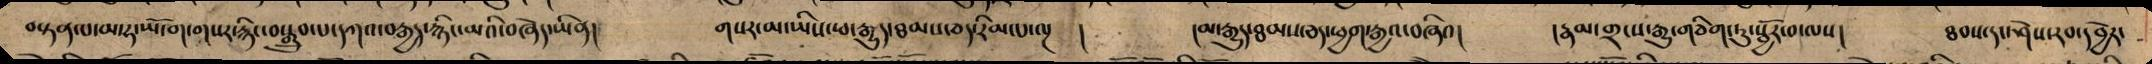བསྟན་པ་མ་ཧ་ཡོ་ག་གསར་རྙིང་བསྒྲུབ་པ་དཀའ་བརྒྱད་རྙིང་མའི་བཞེད་ཡིན། གསར་མ་ཡིས་ཕ་རྒྱུད་ཐམས་ཅད་རིམ་པ་ལྔ ། །མ་རྒྱུད་ཐམས་ཅད་ཕྱག་རྒྱའ་བཞིའ། །རྣམ་གྲངས་རྒྱུ་གཅིག་ཏུ་སྦྱོར་བ་ལས། ཐབས་དང་ཤེས་རབ་དབྱེར་
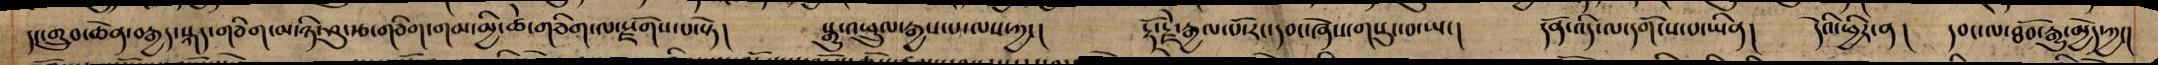དང་གྲུབ་ཆེན་བརྒྱད་སྐད་གཅིག་མ་ཉི་ཤུ་རྩ་གཅིག་གམ་མྱི་ཚེ་གཅིག་ལ་སྫོགས་པ་སྟེ། སྒྱུ་འཕྲུལ་རྒྱས་པ་ལས་ཀྱང། རྡོ་རྗེ་རྒྱལ་པོ་རང་དབང་ཞེས་གསུང་བ་ཡང། དོན་འདི་ལ་དགོངས་པ་ཡིན། དེའི་ཕྱིར་ན། དབང་ལ་ཐོབ་རྒྱུ་མྱེད་ཀྱང།
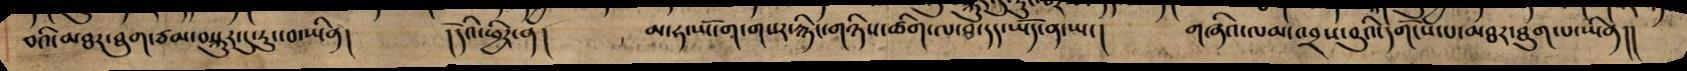བའི་མཐར་ཐུག་ཙམ་བསྐུར་དུ་རུང་བ་ཡིན། །དེའི་ཕྱིར་ན། མ་ཧ་ཡོ་ག་གསར་རྙིང་གཉིས་ཚིག་ལ་ཐ་དད་ཡོད་བ་ཡང། གཞིའ་ལམ་འབྲས་བུའི་དགོངས་པ་མཐར་ཐུག་པ་ཡིན།།
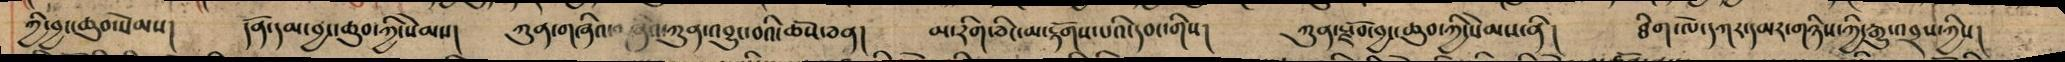ཀྱི་བྱང་ཆུབ་སེམས། དོན་དམ་བྱང་ཆུབ་ཀྱི་སེམས། ཀུན་གཞིའ་ ཀུན་འབྱུང་བའི་ཆོས་ཅན། མ་རིག་ཅིང་མ་རྟོགས་པའི་དབང་གིས། ཀུན་སྫོབ་བྱང་ཆུབ་ཀྱི་སེམས་ནི། ཐིག་ལེ་དཀར་དམར་གཉིས་ཀྱི་རྒྱུ་འབྲས་ཀྱིས།
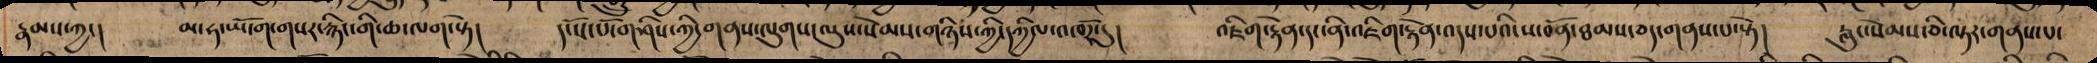རྣམས་ཀྱང། མ་ཧ་ཡོ་ག་གསར་རྙིང་གི་ཆ་ལག་སྟེ། དངོས་པོ་གཤིས་ཀྱི་གནས་ལུགས་ལུས་སེམས་གཉིས་ཀྱི་དཀྱིལ་འཁོར་དུ། འཇིག་རྟེན་དང་ནི་འཇིག་རྟེན་འདས་པའི་ས་བོན་ཐམས་ཅད་གནས་པ་སྟེ། རླུང་སེམས་ཅི་ལྟར་གནས་པ་
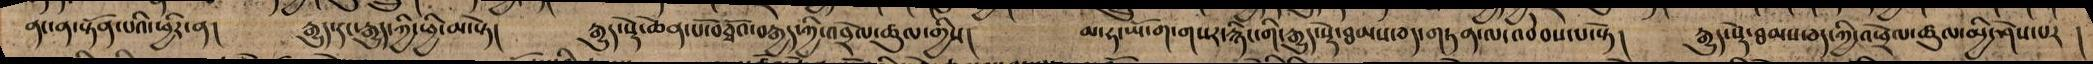ནང་ན་སྟོན་པའི་ཕྱིར་ན། རྒྱུད་དང་རྒྱུད་ཀྱི་ཕྱི་མ་སྟེ། རྒྱུད་སྡེ་ཆེན་པོ་བཅྭོའ་བརྒྱད་ཀྱི་འབྲེལ་ཚུལ་གྱིས། མ་ཧ་ཡོ་ག་གསར་རྙིང་གི་རྒྱུད་སྡེ་ཐམས་ཅད་གཏན་ལ་འབེབས་པ་སྟེ། རྒྱུད་སྡེ་ཐམས་ཅད་ཀྱི་འཕྲེང་ཚུལ་མྱི་ཤེས་པར །
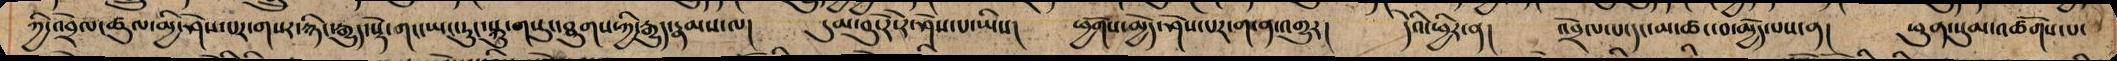ཀྱི་འབྲེལ་ཚུལ་མྱི་ཤེས་པར་གསར་རྙིང་རྒྱུད་སྡེ་གང་ཡང་རུང་སྐུ་གསུང་ཐུགས་ཀྱི་རྒྱུད་རྣམས་ལ། དུམ་བུ་རེ་རེ་ཤེས་པ་ཡིས། ཕྱོགས་མྱེད་ཤེས་པར་ག་ན་འགྱུར། དེའི་ཕྱིར་ན། འབྲེལ་པ་དང་མ་ཚང་བ་མྱེད་པས་ན། ཕུན་སུམ་འཚོགས་པ་
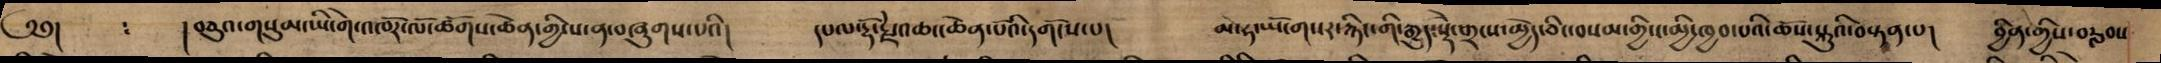༄༅། །བཅུ་གསུམ་ཡི་གེ་འཁོར་ལོ་ཚོགས་ཆེན་གྱི་ས་ན་བཞུགས་པའི། དཔལ་རྡོ་རྗེ་འཆང་ཆེན་པོའི་དགོངས་པ། མ་ཧ་ཡོ་གསར་རྙིང་གི་རྒྱུད་སྡེ་གྲངས་མྱེད་ཅིང་བསམ་གྱིས་མྱི་ཁྱབ་པའི་ཆོས་སྐུའི་བསྟན་པ། བྱིན་གྱིས་བརླབས
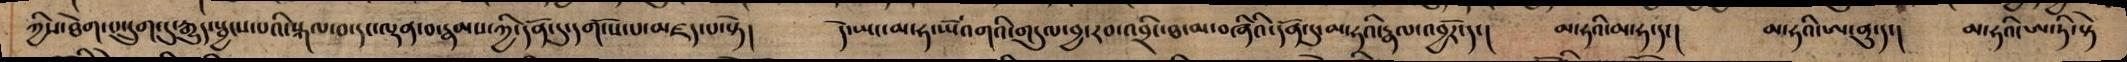ཀྱིས་ཐེག་པ་དྲུག་དུ་རྒྱུད་སྦྱངས་པའི་སྐལ་བ་དང་ལྡན་བ་རྣམས་ཀྱི་དོན་དུ་དགོངས་པ་མཛད་པ་སྟེ། དེ་ཡང་མ་ཧ་ཡོའགའི་གདུལ་བྱ་རབ་འབྲིང་ཐ་མ་བཞིའི་དོན་དུ་མ་ཧའི་རྣལ་འབྱོར་དང། མ་ཧའི་མ་ཧ་དང། མ་ཧའི་ཨ་ནུ་དང། མ་ཧའི་ཨ་ཏི་སྟེ
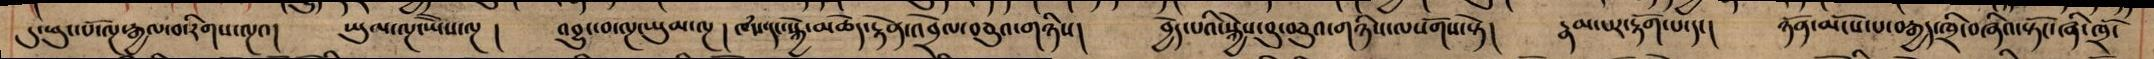དུ་ཕུང་པོ་ལྔ་རྒྱལ་བ་རིགས་ལྔའ། ཡུལ་ལྔ་ཡཻས་ལྔ ། འབྱུང་བ་ལྔ་ཡུམ་ལྔ། ཁཾས་དང་སྐྱེ་མཆེད་རྟེན་འབྲེལ་བཅུའ་གཉིས། བྱེད་པའི་སྐྱེས་བུ་བཅུའ་གཉིས་ལསོགས་སྟེ། རྣམ་པར་རྟོག་པ་དང། ཉོན་མོངས་པ་བརྒྱད་ཁྲི་བཞིའ་སྟོང་ཞི་ཁྲོ་
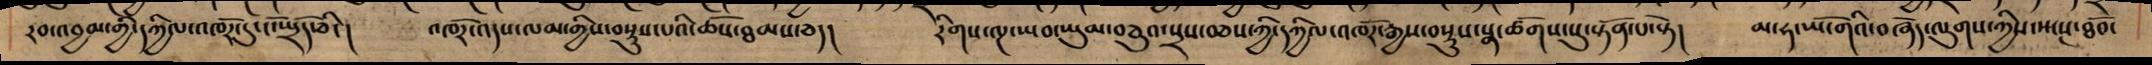རབ་འབྱམ་གྱི་དཀྱིལ་འཁོར་དུ་ངོ་སྤྲོད་ཅིང། འཁོར་འདས་ལམ་གྱིས་བསྡུས་པའི་ཆོས་ཐམས་ཅད། རིགས་ལྔ་ཡབ་ཡུམ་བཅུའ་སྲས་བཅས་ཀྱི་དཀྱིལ་འཁོར་རྒྱས་བསྡུས་སྣ་ཚོགས་སུ་སྟོན་པ་སྟེ། མ་ཧ་ཡོ་གའི་བཞེད་ལུགས་ཀྱིས་སྤངས་ཐོབ་
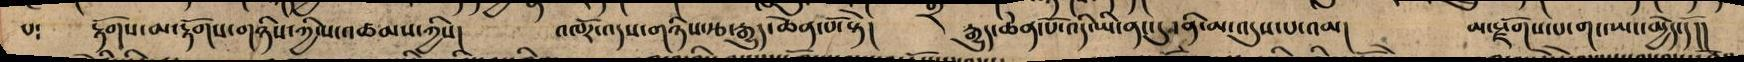པ༴ རྟོགས་མ་རྟོགས་གཉིས་ཀྱིས་འཚམས་ཀྱིས། འཁཽར་འདས་གཉིས་རྩ་རྒྱུད་ཆེན་པོ་སྟེ། རྒྱུད་ཆེན་པོ་འདི་ཡི་ནང་དུ་ནི་མ་འདུས་པ་འམ། མ་སྫོགས་པ་གང་ཡང་མྱེད་དོ།།
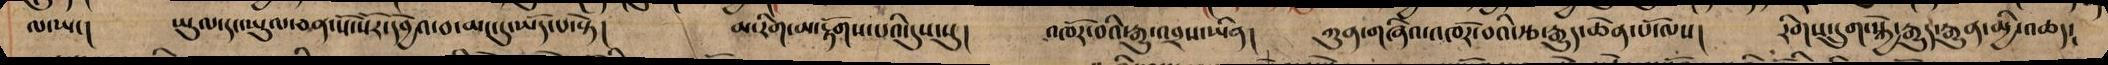ལ་ཡང། ཡུལ་དང་ཡུལ་ཅན་སོ་སོར་དབྱེའ་བ་མང་དུ་ཡོད་པ་སྟེ། མ་རིག་མ་རྟོགས་པའི་དུས་སུ། འཁོར་བའི་རྒྱུ་འབྲས་ཡིན། ཀུན་གཞིའི་འཁོར་བའི་རྩ་རྒྱུད་ཆེན་པོ་ལས། རིགས་དྲུག་སྐྱེ་རྒྱུད་རྒྱུན་མྱི་འཆད་
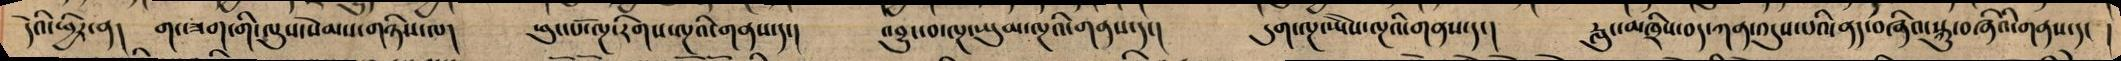དེའི་ཕྱིར་ན། གང་ཟག་གི་ལུས་སེམས་གཉིས་ལ། ཕུང་པོ་ལྔ་རིགས་ལྔའི་གནས་དང། འབྱུང་བ་ལྔ་ཡུམ་ལྔའི་གནས་དང། དུག་ལྔ་ཡཻས་ལྔའི་གནས་དང། རླུང་མཁྲིས་བད་ཀན་འདུས་པའི་ནད་བཞིའི་སྐུ་བཞིའི་གནས་དང །
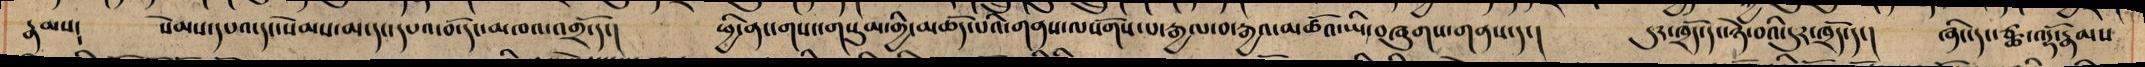རྣམས༴ སེམས་དཔའ་དང་སེམས་མ་དང་དཔའ་བོ་དང་མཁའ་འགྲོ་དང། ཕྱི་ནང་གསང་གསུམ་གྱི་མཆོད་པའི་གནས་ལསོགས་པ་རྒྱལ་བ་རྒྱའ་མཚོའ་ཡི་བཞུགས་གནས་དང། དུར་ཁྲོད་དང་ཉེ་བའི་དུར་ཁྲོད་དང། ཞིང་དང་ཙྪ་འོདྷ་རྣམས
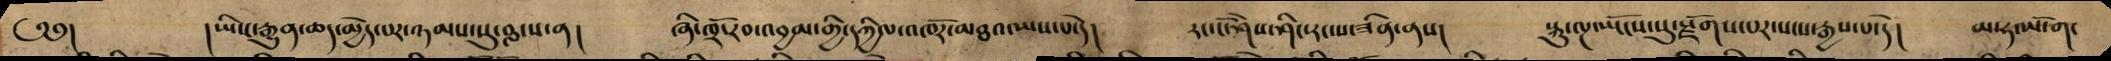༄༅། །ཡིས་རྒྱུན་ཆད་མྱེད་པར་ཉམས་སུ་བླངས་ན། ཞི་ཁྲོ་རབ་འབྱམ་གྱི་དཀྱིལ་འཁོར་མཐའ་ཡས་པ་དེ། རང་ངོ་ཤེས་ཤིང་རང་ས་ཟིན་ནས། སྐུ་ལྔ་ཡོངས་སུ་སྫོགས་པར་སངས་རྒྱས་པ་དེ། མ་ཧ་ཡོ་ག་
